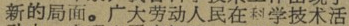新的局面。广大劳动人民在科学技术活
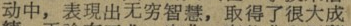动中，表現出无穷智慧，取得了很大成
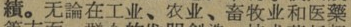績。无論在工业、农业、畜牧业和医藥
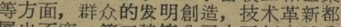等方面，群众的发明創造，技术革新都
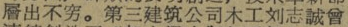層出不穷。第三建筑公司木工刘志誠曾
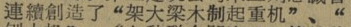連續創造了“架大梁木制起重机” 、“
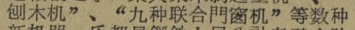刨木机” 、“九种联合門窗机”等数种
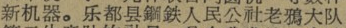新机器。乐都县鋼鉄人民公社老鴉大队
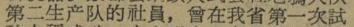第二生产队的社員，曾在我省第一次試
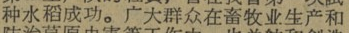种水稻成功。广大群众在畜牧业生产和
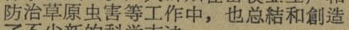防治草原虫害等工作中，也总結和創造
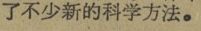了不少新的科学方法。
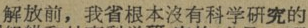解放前，我省根本沒有科学研究的
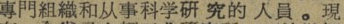專門組織和从事科学研 究的 人員。現
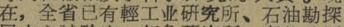在，全省已有輕工业研究所、石油勘探
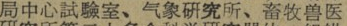局中心实驗室、气象研究所、畜牧兽医
